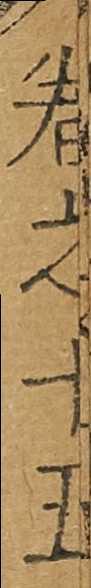卷之十五
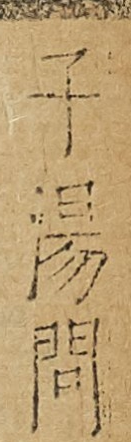子湯問
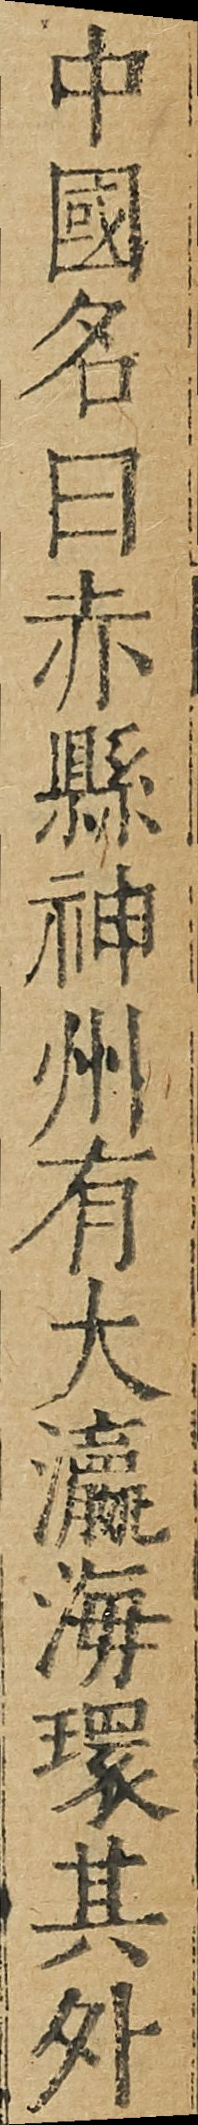中國名曰赤縣神州有大瀛海環其外
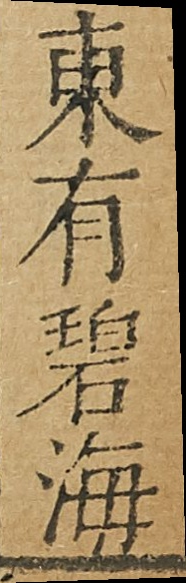東有碧海
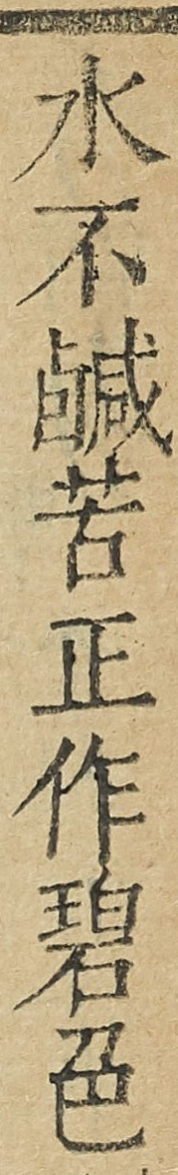水不鹹苦正作碧色
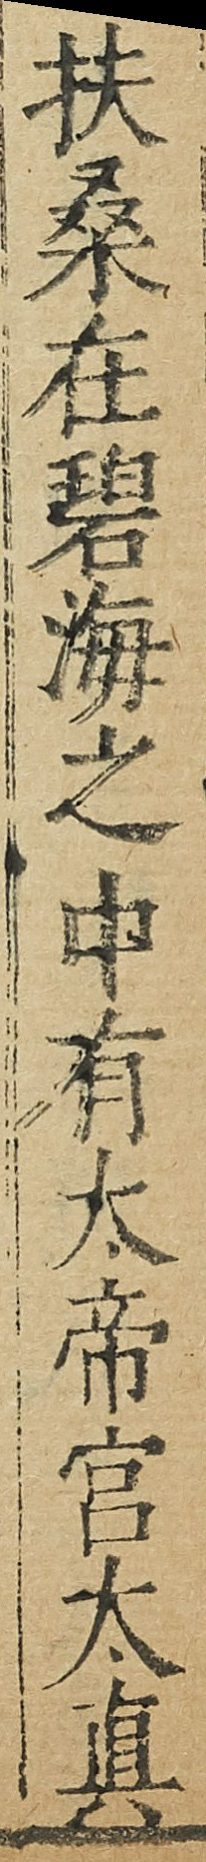扶桑在碧海之中有太帝宮太真
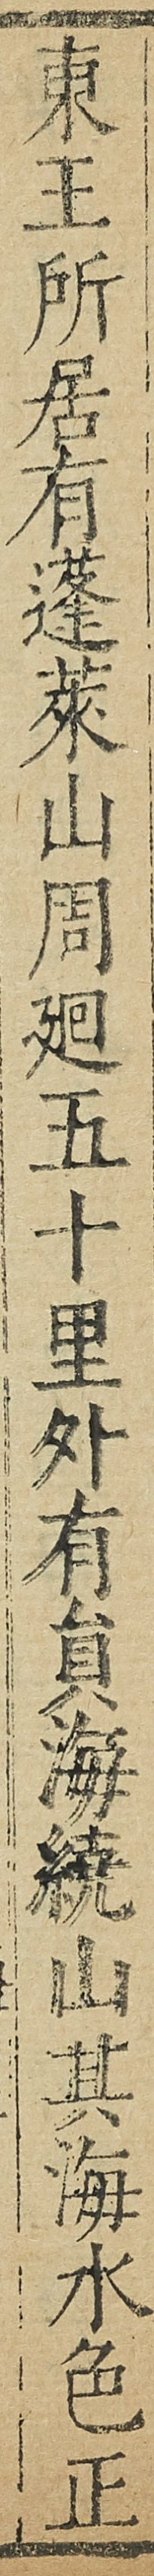東王所居有蓬萊山周廻五十里外有員海繞山其海水色正
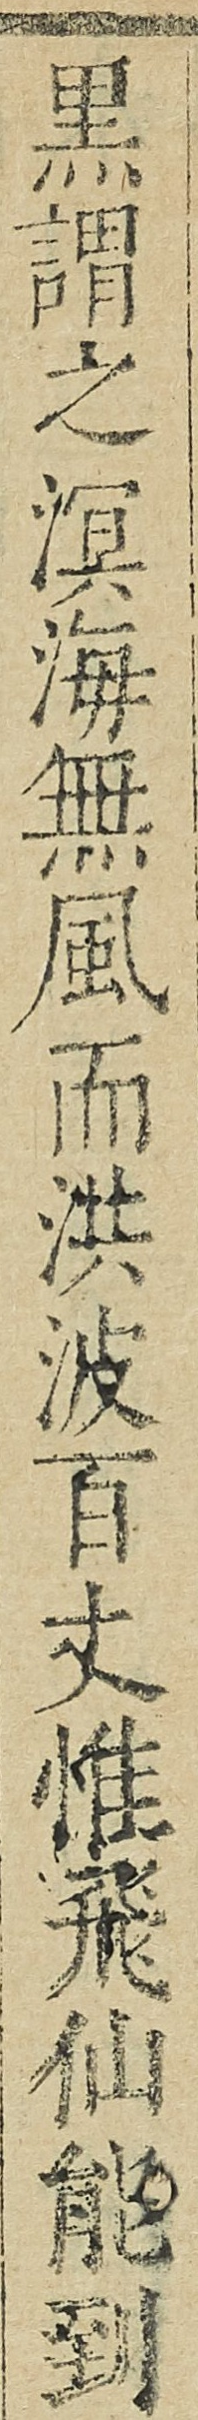黒謂之溟海無風而洪波百丈惟飛仙能到
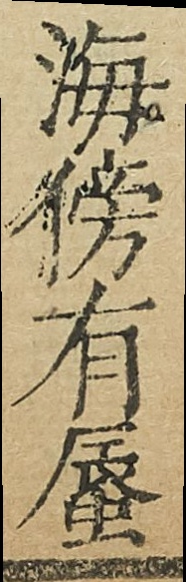海傍有蜃
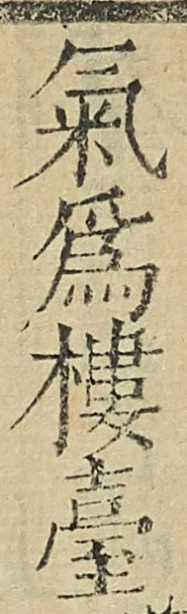氣為樓臺
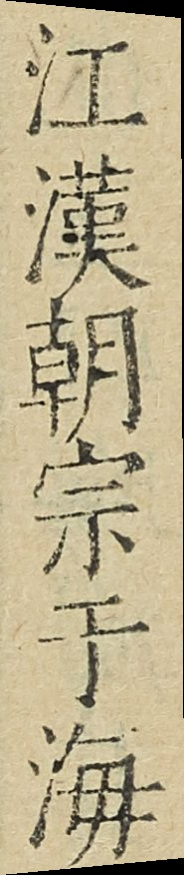江漢朝宗于海
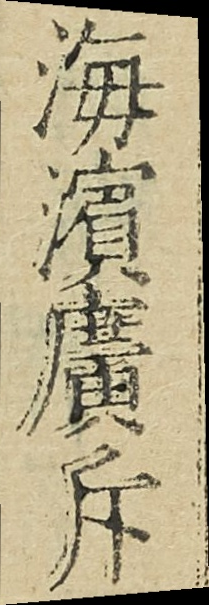海濵廣斥
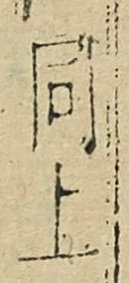同上
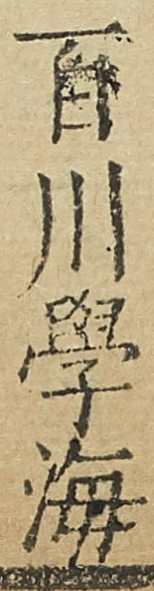百川學海
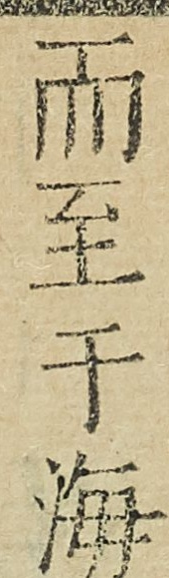而至于海
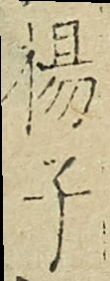揚子
